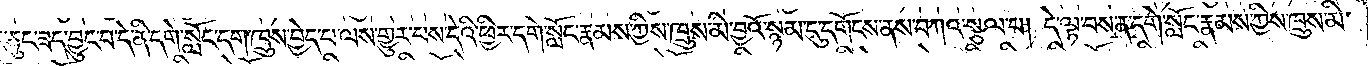ཅུང་ཟད་བྱུང་བ་དེ་ནི་དགེ་སློང་དག་ཁྲུས་བྱེད་པ་ལས་གྱུར་པས་དེའི་ཕྱིར་དགེ་སློང་རྣམས་ཀྱིས་ཁྲུས་མི་བྱའོ་སྙམ་དུ་དགོངས་ནས་བཀའ་སྩལ་པ། དེ་ལྟ་བས་ན་དགེ་སློང་རྣམས་ཀྱིས་ཁྲུས་མི་
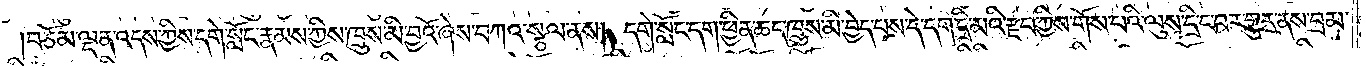བྱའོ། །བཅོམ་ལྡན་འདས་ཀྱིས་དགེ་སློང་རྣམས་ཀྱིས་ཁྲུས་མི་བྱའོ་ཞེས་བཀའ་སྩལ་ནས། དགེ་སློང་དག་ཕྱིན་ཆད་ཁྲུས་མི་བྱེད་པས་དེ་དག་དྲི་མའི་རྫབ་ཀྱིས་གོས་པའི་ལུས་དྲི་ང་བར་གྱུར་ནས་བྲམ་
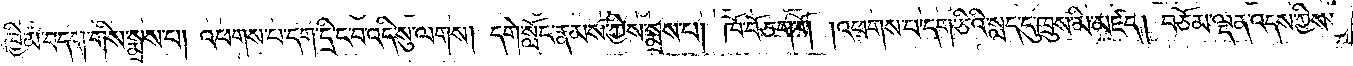ཟེ་དང་ཁྱིམ་བདག་གིས་སྨྲས་པ། འཕགས་པ་དག་དྲི་ང་བའི་འདི་སུ་ལགས། དགེ་སློང་རྣམས་ཀྱིས་སྨྲས་པ། ཁོ་བོ་ཅག་གོ །འཕགས་པ་དག་ཅིའི་སླད་དུ་ཁྲུས་མི་མཛད། བཅོམ་ལྡན་འདས་ཀྱིས་
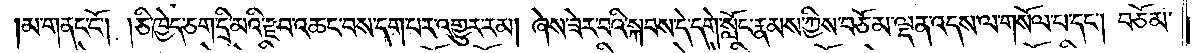མ་གནང་ངོ༌། །ཅི་ཁྱེད་ཅག་དྲི་མའི་རྫབ་འཆང་བས་དག་པར་འགྱུར་རམ། ཞེས་ཟེར་བའི་སྐབས་དེ་དགེ་སློང་རྣམས་ཀྱིས་བཅོམ་ལྡན་འདས་ལ་གསོལ་པ་དང༌། བཅོམ་
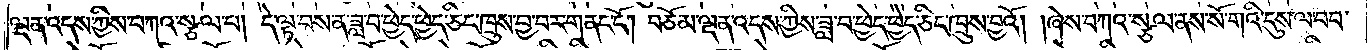ལྡན་འདས་ཀྱིས་བཀའ་སྩལ་པ། དེ་ལྟ་བས་ན་ཟླ་བ་ཕྱེད་ཕྱེད་ཅིང་ཁྲུས་བྱ་བར་གནང་ངོ༌། བཅོམ་ལྡན་འདས་ཀྱིས་ཟླ་བ་ཕྱེད་ཕྱེད་ཅིང་ཁྲུས་བྱའོ། །ཞེས་བཀའ་སྩལ་ནས་སོ་གའི་དུས་ལ་བབ་
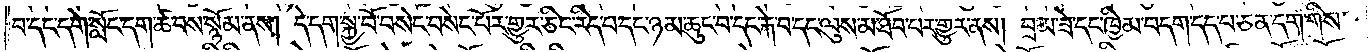པ་དང་དགེ་སློང་དག་ཚ་བས་སྙོམ་ནས། དེ་དག་སྐྱ་བོ་བསེང་བསེང་བོར་གྱུར་ཅིང་རིད་པ་དང་ཉམ་ཆུང་བ་དང་རྐེ་བ་དང་ལུས་མ་ཐོབ་པར་གྱུར་ནས། བྲམ་ཟེ་དང་ཁྱིམ་བདག་དད་པ་ཅན་དག་གིས་
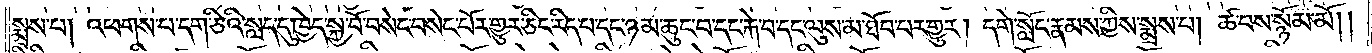སྨྲས་པ། འཕགས་པ་དག་ཅིའི་སླད་དུ་ཁྱེད་སྐྱ་བོ་བསེར་བསེང་བོར་གྱུར་ཅིང་རིད་པ་དང་ཉམ་ཆུང་བ་དང་རྐེ་བ་དང་ལུས་མ་ཐོབ་པར་གྱུར། དགེ་སློང་རྣམས་ཀྱིས་སྨྲས་པ། ཚ་བས་སྙོམ་མོ། །
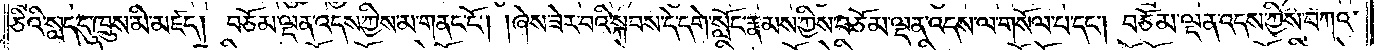ཅིའི་སླད་དུ་ཁྲུས་མི་མཛད། བཅོམ་ལྡན་འདས་ཀྱིས་མ་གནང་ངོ༌། །ཞེས་ཟེར་བའི་སྐབས་དེ་དགེ་སློང་རྣམས་ཀྱིས་བཅོམ་ལྡན་འདས་ལ་གསོལ་པ་དང༌། བཅོམ་ལྡན་འདས་ཀྱིས་བཀའ་
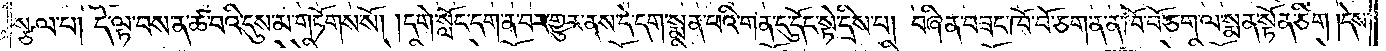སྩལ་པ། དེ་ལྟ་བས་ན་ཚ་བའི་དུས་མ་གཏོགས་སོ། །དགེ་སློང་དག་ན་བར་གྱུར་ནས་དེ་དག་སྨན་པའི་གན་དུ་དོང་སྟེ་དྲིས་པ། བཞིན་བཟང་ཁོ་བོ་ཅག་ན་ན་ཁོ་བོ་ཅག་ལ་སྨན་སྟོན་ཅིག །དེས་
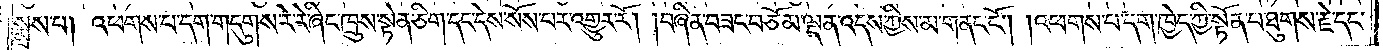སྨྲས་པ། འཕགས་པ་དག་གདུགས་རེ་རེ་ཞིང་ཁྲུས་སྟེན་ཅིག་དང་དེས་སོས་པར་འགྱུར་རོ། །བཞིན་བཟང་བཅོམ་ལྡན་འདས་ཀྱིས་མ་གནང་ངོ༌། །འཕགས་པ་དག་ཁྱེད་ཀྱི་སྟོན་པ་ཐུགས་རྗེ་དང་
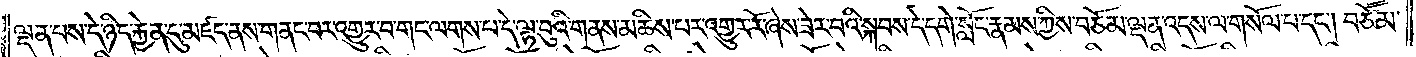ལྡན་པས་དེ་ཉིད་རྐྱེན་དུ་མཛད་ནས་གནང་བར་འགྱུར་པ་གང་ལགས་པ་དེ་ལྟ་བུའི་གནས་མཆིས་པར་འགྱུར་རོ་ཞེས་ཟེར་བའི་སྐབས་དེ་དགེ་སློང་རྣམས་ཀྱིས་བཅོམ་ལྡན་འདས་ལ་གསོལ་པ་དང༌། བཅོམ་
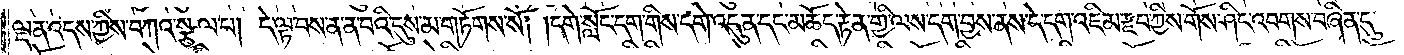ལྡན་འདས་ཀྱིས་བཀའ་སྩལ་པ། དེ་ལྟ་བས་ན་ན་བའི་དུས་མ་གཏོགས་སོ། །དགེ་སློང་དག་གིས་དགེ་འདུན་དང་མཆོད་རྟེན་གྱི་ལས་དག་བྱས་ནས་དེ་དག་འཇིམ་རྫབ་ཀྱིས་གོས་ཤིང་འབགས་བཞིན་དུ་
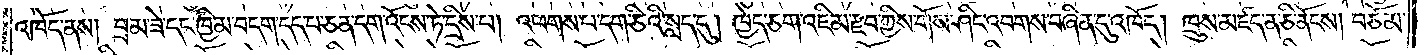འཁོད་ནས། བྲམ་ཟེ་དང་ཁྱིམ་བདག་དད་པ་ཅན་དག་འོངས་ཏེ་དྲིས་པ། འཕགས་པ་དག་ཅིའི་སླད་དུ། ཁྱེད་ཅག་འཇིམ་རྫབ་ཀྱིས་གོས་ཤིང་འབགས་བཞིན་དུ་འཁོད། ཁྲུས་མཛད་ན་ཅི་ནོངས། བཅོམ་
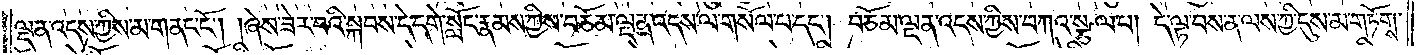ལྡན་འདས་ཀྱིས་མ་གནང་ངོ༌། །ཞེས་ཟེར་བའི་སྐབས་དེ་དགེ་སློང་རྣམས་ཀྱིས་བཅོམ་ལྡན་འདས་ལ་གསོལ་པ་དང༌། བཅོམ་ལྡན་འདས་ཀྱིས་བཀའ་སྩལ་པ། དེ་ལྟ་བས་ན་ལས་ཀྱི་དུས་མ་གཏོགས་
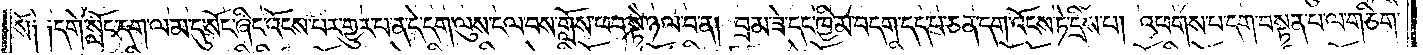སོ༑ ༑དགེ་སློང་དག་ལམ་དུ་སོང་ཞིང་འོངས་པར་གྱུར་པ་ན་དེ་དག་ལུས་ངལ་བས་གློས་ཕབ་སྟེ་ཉལ་བ་ན། བྲམ་ཟེ་དང་ཁྱིམ་བདག་དད་པ་ཅན་དག་འོངས་ཏེ་དྲིས་པ། འཕགས་པ་དག་བསྟན་པ་ལ་གཅིག་
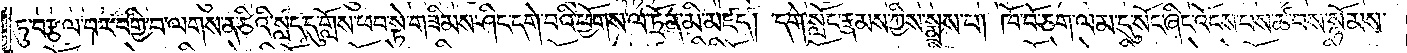ཏུ་བརྩལ་བར་བགྱི་བ་ལགས་ན་ཅིའི་སླད་དུ་གློས་ཕབ་སྟེ་གཟིམས་ཤིང་དགེ་བའི་ཕྱོགས་ལ་ཏྲོན་མི་མཛད། དགེ་སློང་རྣམས་ཀྱིས་སྨྲས་པ། ཁོ་བོ་ཅག་ལམ་དུ་སོང་ཞིང་འོངས་པས་ཚ་བས་སྙོམས་
